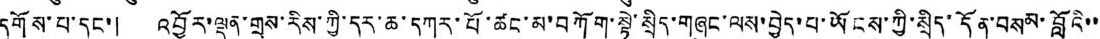དགོས་པ་དང་། འབྱོར་ལྡན་གྲས་རིས་ཀྱི་དར་ཆ་དཀར་པོ་ཚང་མ་བཀོག་སྟེ་སྲིད་གཞུང་ལས་བྱེད་པ་ཡོངས་ཀྱི་སྲིད་དོན་བསམ་བློའི་་
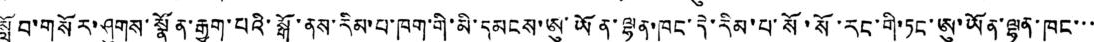སློབ་གསོར་ཤུགས་སྣོན་རྒྱག་པའི་སྒོ་ནས་རིམ་པ་ཁག་གི་མི་དམངས་ཨུ་ཡོན་ལྷན་ཁང་དེ་རིམ་པ་སོ་སོ་རང་གི་ཏང་ཨུ་ཡོན་ལྷན་ཁང་་་
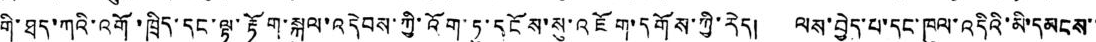གི་ཐད་ཀའི་འགོ་ཁྲིད་དང་ལྟ་རྟོག་སྐུལ་འདེབས་ཀྱི་འོག་ཏུ་དངོས་སུ་འཇོག་དགོས་ཀྱི་རེད། ལས་བྱེད་པ་དང་ཁུལ་འདིའི་མི་དམངས་་
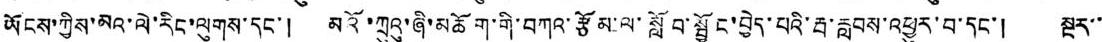ཡོངས་ཀྱིས་མའ་ལེ་རིང་ལུགས་དང་། མའོ་ཀྲུའུ་ཞི་མཆོག་གི་བཀའ་རྩོམ་ལ་སློབ་སྦྱོང་བྱེད་པའི་རྦ་རླབས་འཕྱུར་བ་དང་། སྔར་་
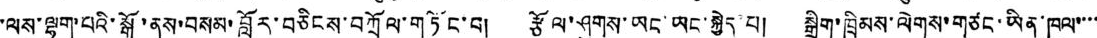་ལས་ལྷག་པའི་སྒོ་ནས་བསམ་བློར་བཅིངས་བཀྲོལ་གཏོང་བ། རྩོལ་ཤུགས་ཡང་ཡང་སྐྱེད་པ། སྒྲིག་ཁྲིམས་ལེགས་གཙང་ཡིན་ཁུལ་་་་
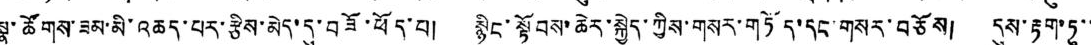སྣ་ཚོགས་ཟམ་མི་འཆད་པར་རྩིས་མེད་དུ་བཟོ་ཕོད་པ། སྙིང་སྟོབས་ཆེར་སྐྱེད་ཀྱིས་གསར་གཏོད་དང་གསར་བཅོས། དུས་རྟག་ཏུ་་
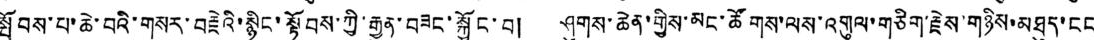སྤོབས་པ་ཆེ་བའི་གསར་བརྗེའི་སྙིང་སྟོབས་ཀྱི་རྒྱུན་བཟང་སྐྱོང་བ། ཤུགས་ཆེན་གྱིས་མང་ཚོགས་ལས་འགུལ་གཅིག་རྗེས་གཉིས་མཐུད་ངང
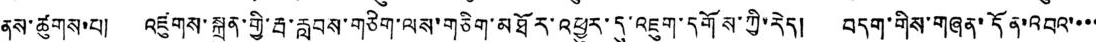ནས་ཚུགས་པ། འཛུགས་སྐྲུན་གྱི་རྦ་རླབས་གཅིག་ལས་གཅིག་མཐོར་འཕྱུར་དུ་འཇུག་དགོས་ཀྱི་རེད། བདག་གིས་གཞན་དོན་འབའ་་་་
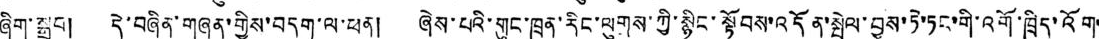ཞིག་སྒྲུབ། དེ་བཞིན་གཞན་གྱིས་བདག་ལ་ཕན། ཞེས་པའི་གུང་ཁྲན་རིང་ལུགས་ཀྱི་སྙིང་སྟོབས་འདོན་སྤེལ་བྱས་ཏེ་ཏང་གི་འགོ་ཁྲིད་འོག་
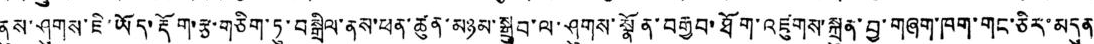ནུས་ཤུགས་ཇི་ཡོད་རྡོག་རྩ་གཅིག་ཏུ་བསྒྲིལ་ནས་ཕན་ཚུན་མཉམ་སྒྲུབ་ལ་ཤུགས་སྣོན་བརྒྱབ་ཐོག་འཛུགས་སྐྲུན་བྱ་གཞག་ཁག་གང་ཅིར་མདུན་
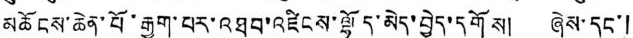མཆོངས་ཆེན་པོ་རྒྱག་པར་འཐབ་འཛིངས་ལྷོད་མེད་བྱེད་དགོས། ཞེས་དང་།
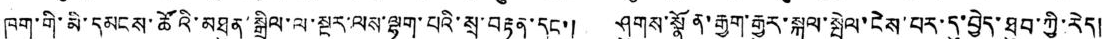ཁག་གི་མི་དམངས་ཚོའི་མཐུན་སྒྲིལ་ལ་སྔར་ལས་ལྷག་པའི་སྲ་བརྟན་དང་། ཤུགས་སྣོན་རྒྱག་རྒྱུར་སྐུལ་སྤེལ་ངེས་པར་དུ་བྱེད་ཐུབ་ཀྱི་རེད།
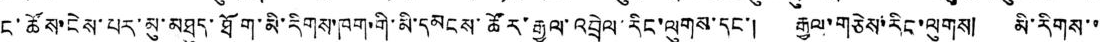ང་ཚོས་ངེས་པར་མུ་མཐུད་ཐོག་མི་རིགས་ཁག་གི་མི་དམངས་ཚོར་རྒྱལ་འབྲེལ་རིང་ལུགས་དང་། རྒྱལ་གཅེས་རིང་ལུགས། མི་རིགས་་
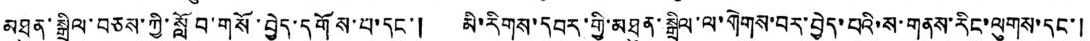མཐུན་སྒྲིལ་བཅས་ཀྱི་སློབ་གསོ་བྱེད་དགོས་པ་དང་། མི་རིགས་དཔར་གྱི་མཐུན་སྒྲིལ་ལ་གེགས་བར་བྱེད་པའི་ས་གནས་རིང་ལུགས་དང་།
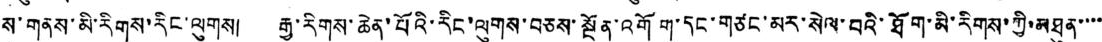ས་གནས་མི་རིགས་རིང་ལུགས། རྒྱ་རིགས་ཆེན་པོའི་རིང་ལུགས་བཅས་སྔོན་འགོག་དང་གཙང་མར་སེལ་བའི་ཐོག་མི་རིགས་ཀྱི་མཐུན་་་་
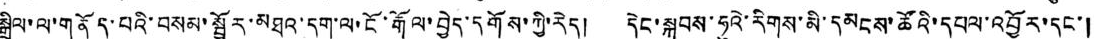སྒྲིལ་ལ་གནོད་པའི་བསམ་སྦྱོར་མཐའ་དག་ལ་ངོ་རྒོལ་བྱེད་དགོས་ཀྱི་རེད། དེང་སྐབས་ཧུའེ་རིགས་མི་དམངས་ཚོའི་དཔལ་འབྱོར་དང་།
